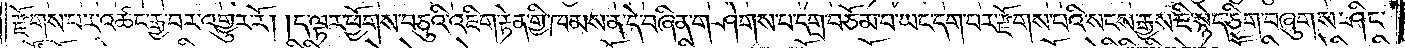རྫོགས་པར་འཚང་རྒྱ་བར་འགྱུར་རོ། །ད་ལྟར་ཕྱོགས་བཅུའི་འཇིག་རྟེན་གྱི་ཁམས་ན་དེ་བཞིན་གཤེགས་པ་དགྲ་བཅོམ་པ་ཡང་དག་པར་རྫོགས་པའི་སངས་རྒྱས་ཇི་སྙེད་ཅིག་བཞུགས་ཤིང་
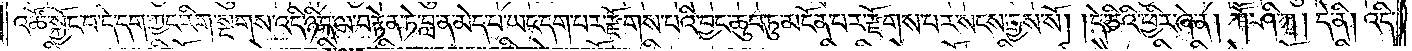འཚོ་སྐྱོང་བ་དེ་དག་ཀྱང་རིག་སྔགས་འདི་ཉིད་ལ་བརྟེན་ཏེ་བླ་ན་མེད་པ་ཡང་དག་པར་རྫོགས་པའི་བྱང་ཆུབ་ཏུ་མངོན་པར་རྫོགས་པར་སངས་རྒྱས་སོ། །དེ་ཅིའི་ཕྱིར་ཞེ་ན། ཀཽ་ཤི་ཀ། དེ་ནི། འདི་
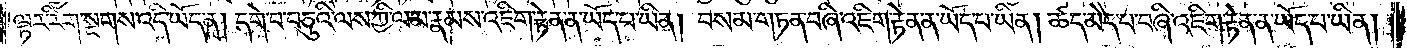ལྟར་རིག་སྔགས་འདི་ཡོད་ན། དགེ་བ་བཅུའི་ལས་ཀྱི་ལམ་རྣམས་འཇིག་རྟེན་ན་ཡོད་པ་ཡིན། བསམ་གཏན་བཞི་འཇིག་རྟེན་ན་ཡོད་པ་ཡིན། ཚད་མེད་པ་བཞི་འཇིག་རྟེན་ན་ཡོད་པ་ཡིན།
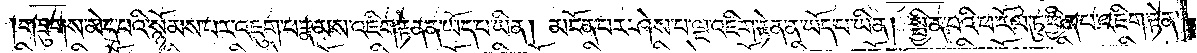གཟུགས་མེད་པའི་སྙོམས་པར་འཇུག་པ་རྣམས་འཇིག་རྟེན་ན་ཡོད་པ་ཡིན། མངོན་པར་ཤེས་པ་ལྔ་འཇིག་རྟེན་ན་ཡོད་པ་ཡིན། སྦྱིན་པའི་ཕ་རོལ་ཏུ་ཕྱིན་པ་འཇིག་རྟེན་
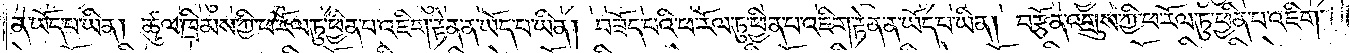ན་ཡོད་པ་ཡིན། ཚུལ་ཁྲིམས་ཀྱི་ཕ་རོལ་ཏུ་ཕྱིན་པ་འཇིག་རྟེན་ན་ཡོད་པ་ཡིན། བཟོད་པའི་ཕ་རོལ་ཏུ་ཕྱིན་པ་འཇིག་རྟེན་ན་ཡོད་པ་ཡིན། བརྩོན་འགྲུས་ཀྱི་ཕ་རོལ་ཏུ་ཕྱིན་པ་འཇིག་
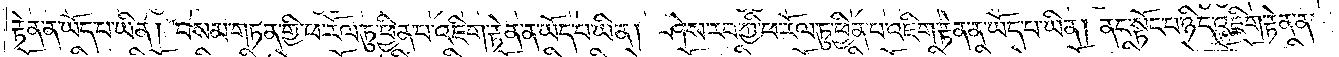རྟེན་ན་ཡོད་པ་ཡིན། བསམ་གཏན་གྱི་ཕ་རོལ་ཏུ་ཕྱིན་པ་འཇིག་རྟེན་ན་ཡོད་པ་ཡིན། ཤེས་རབ་ཀྱི་ཕ་རོལ་ཏུ་ཕྱིན་པ་འཇིག་རྟེན་ན་ཡོད་པ་ཡིན། ནང་སྟོང་པ་ཉིད་འཇིག་རྟེན་ན་
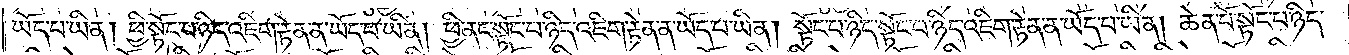ཡོད་པ་ཡིན། ཕྱི་སྟོང་པ་ཉིད་འཇིག་རྟེན་ན་ཡོད་པ་ཡིན། ཕྱི་ནང་སྟོང་པ་ཉིད་འཇིག་རྟེན་ན་ཡོད་པ་ཡིན། སྟོང་པ་ཉིད་སྟོང་པ་ཉིད་འཇིག་རྟེན་ན་ཡོད་པ་ཡིན། ཆེན་པོ་སྟོང་པ་ཉིད་
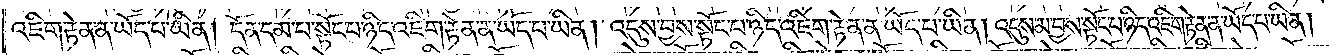འཇིག་རྟེན་ན་ཡོད་པ་ཡིན། དོན་དམ་པ་སྟོང་པ་ཉིད་འཇིག་རྟེན་ན་ཡོད་པ་ཡིན། འདུས་བྱས་སྟོང་པ་ཉིད་འཇིག་རྟེན་ན་ཡོད་པ་ཡིན། འདུས་མ་བྱས་སྟོང་པ་ཉིད་འཇིག་རྟེན་ན་ཡོད་པ་ཡིན།
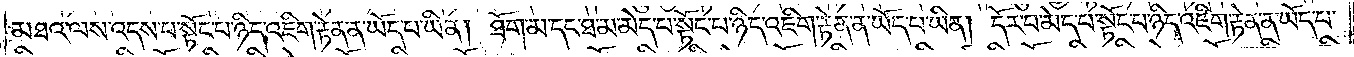མཐའ་ལས་འདས་པ་སྟོང་པ་ཉིད་འཇིག་རྟེན་ན་ཡོད་པ་ཡིན། ཐོག་མ་དང་ཐ་མ་མེད་པ་སྟོང་པ་ཉིད་འཇིག་རྟེན་ཡོད་པ་ཡིན། དོར་བ་མེད་པ་སྟོང་པ་ཉིད་འཇིག་རྟེན་ན་ཡོད་པ་
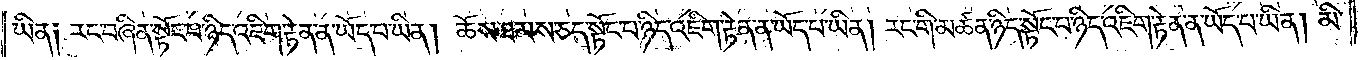ཡིན། རང་བཞིན་སྟོང་པ་ཉིད་འཇིག་རྟེན་ན་ཡོད་པ་ཡིན། ཆོས་ཐམས་ཅད་སྟོང་པ་ཉིད་འཇིག་རྟེན་ན་ཡོད་པ་ཡིན། རང་གི་མཚན་ཉིད་སྟོང་པ་ཉིད་འཇིག་རྟེན་ན་ཡོད་པ་ཡིན། མི་
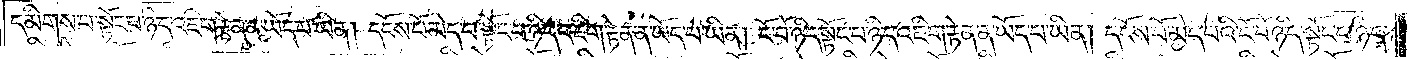དམིགས་པ་སྟོང་པ་ཉིད་འཇིག་རྟེན་ན་ཡོད་པ་ཡིན། དངོས་པོ་མེད་པ་སྟོང་པ་ཉིད་འཇིག་རྟེན་ན་ཡོད་པ་ཡིན། ངོ་བོ་ཉིད་སྟོང་པ་ཉིད་འཇིག་རྟེན་ན་ཡོད་པ་ཡིན། དངོས་པོ་མེད་པའི་ངོ་བོ་ཉིད་སྟོང་པ་ཉིད་
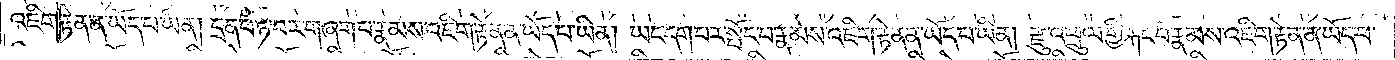འཇིག་རྟེན་ན་ཡོད་པ་ཡིན། དྲན་པ་ཉེ་བར་གཞག་པ་རྣམས་འཇིག་རྟེན་ན་ཡོད་པ་ཡིན། ཡང་དག་པར་སྤོང་བ་རྣམས་འཇིག་རྟེན་ན་ཡོད་པ་ཡིན། རྫུ་འཕྲུལ་གྱི་རྐང་པ་རྣམས་འཇིག་རྟེན་ན་ཡོད་པ་
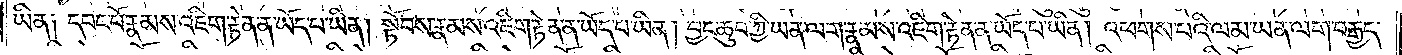ཡིན། དབང་པོ་རྣམས་འཇིག་རྟེན་ན་ཡོད་པ་ཡིན། སྟོབས་རྣམས་འཇིག་རྟེན་ན་ཡོད་པ་ཡིན། བྱང་ཆུབ་ཀྱི་ཡན་ལག་རྣམས་འཇིག་རྟེན་ན་ཡོད་པ་ཡིན། འཕགས་པའི་ལམ་ཡན་ལག་བརྒྱད་
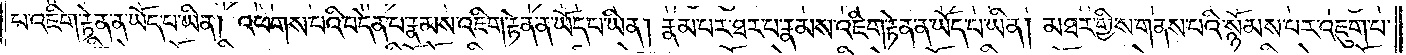པ་འཇིག་རྟེན་ན་ཡོད་པ་ཡིན། འཕགས་པའི་བདེན་པ་རྣམས་འཇིག་རྟེན་ན་ཡོད་པ་ཡིན། རྣམ་པར་ཐར་པ་རྣམས་འཇིག་རྟེན་ན་ཡོད་པ་ཡིན། མཐར་གྱིས་གནས་པའི་སྙོམས་པར་འཇུག་པ་
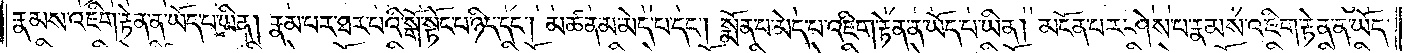རྣམས་འཇིག་རྟེན་ན་ཡོད་པ་ཡིན། རྣམ་པར་ཐར་པའི་སྒོ་སྟོང་པ་ཉིད་དང༌། མཚན་མ་མེད་པ་དང༌། སྨོན་པ་མེད་པ་འཇིག་རྟེན་ན་ཡོད་པ་ཡིན། མངོན་པར་ཤེས་པ་རྣམས་འཇིག་རྟེན་ན་ཡོད་
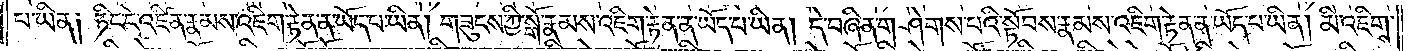པ་ཡིན༑ ཏིང་ངེ་འཛིན་རྣམས་འཇིག་རྟེན་ན་ཡོད་པ་ཡིན། གཟུངས་ཀྱི་སྒོ་རྣམས་འཇིག་རྟེན་ན་ཡོད་པ་ཡིན། དེ་བཞིན་གཤེགས་པའི་སྟོབས་རྣམས་འཇིག་རྟེན་ན་ཡོད་པ་ཡིན། མི་འཇིགས་
